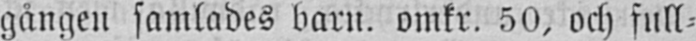gången samlades barn. omkrn 50, och full-
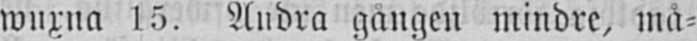wuxna l5. Andra gången mindre, må-
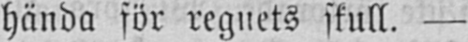hända för regnets skull. —
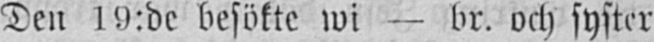Den 19:de besökte wi — br. och syster
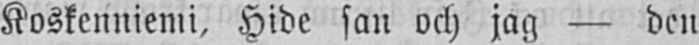Koskenniemi, Hide san och jag — den
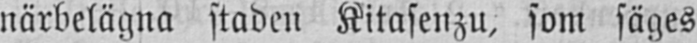närbelägna staden Kitasenzu, som säges
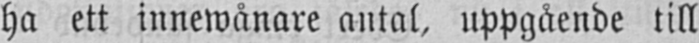ha ett innewånare antal, uppgående till
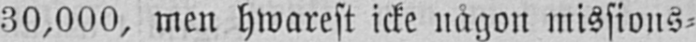30,000, men hwarest icke någon missions-
